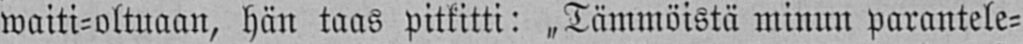waiti-oltuaan, hän taas pitkitti: „Tämmöistä minun parantele-
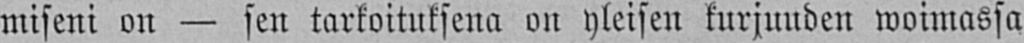miseni on — sen tarkoituksena on yleisen kurjuuden woimassa
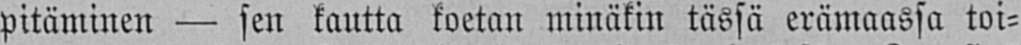pitäminen — sen kautta koetan minäkin tässä erämaassa toi-
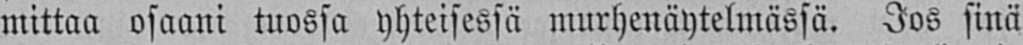mittaa osaani tuossa yhteisessä murhenäytelmässä. Jos sinä
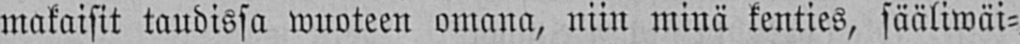makaisit taudissa wuoteen omana, niin minä kenties, sääliwäi-
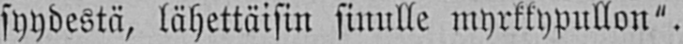syydestä, lähettäisin sinulle myrkkypullon".
